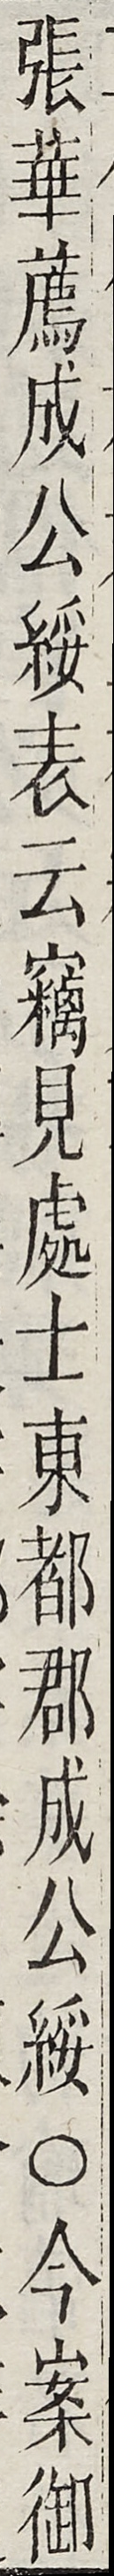張華薦成公綏表云竊見處士東都郡成公綏○今案御
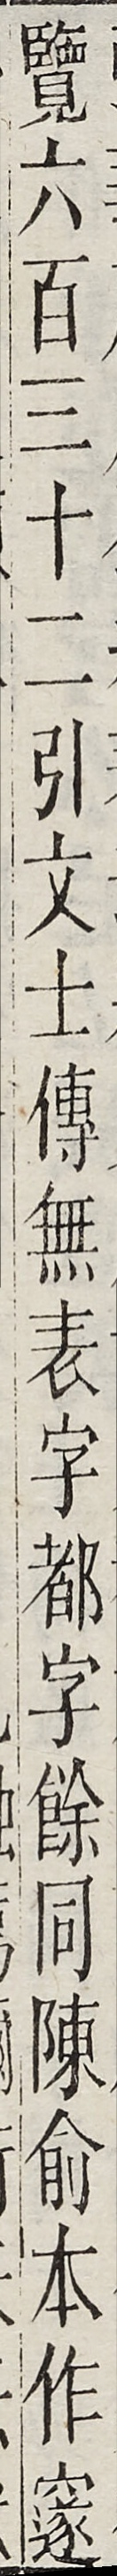覽六百三十二引文士傳無表字郡字餘同陳俞本作邃
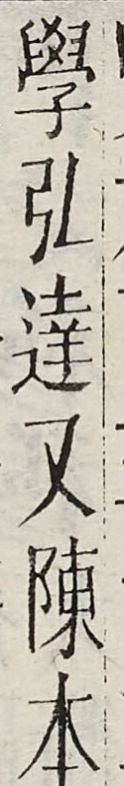學弘達又陳本
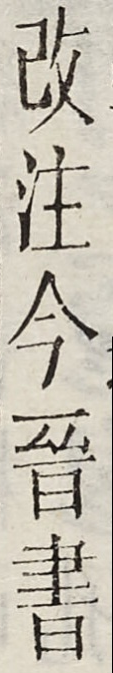改注今晉書
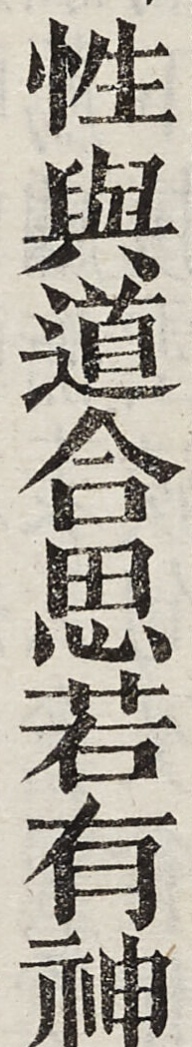性與道合思若有神
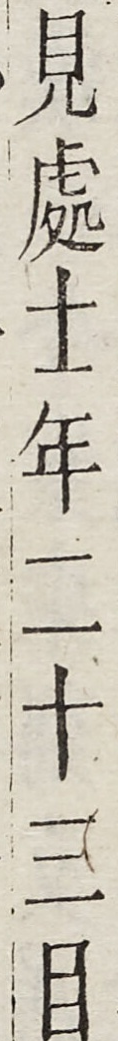見處士年二十三目
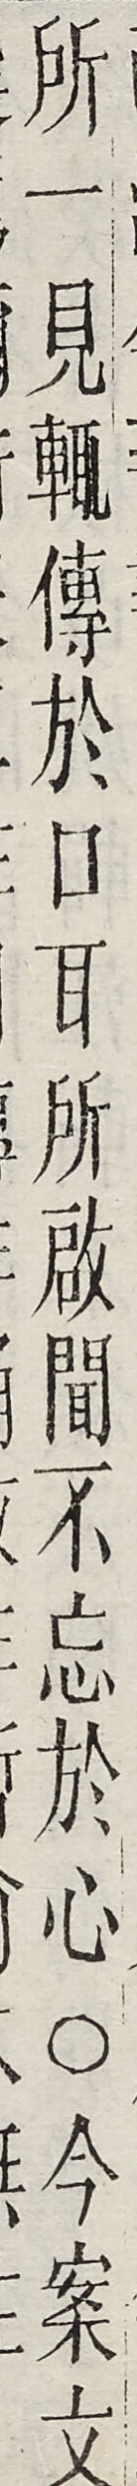所一見輒傳於口耳所啟聞不忘於心○今案文
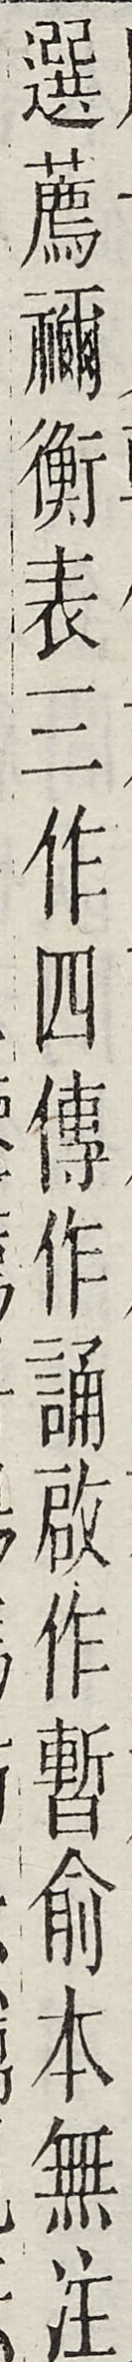選禰衡表三作四傳作誦啟作暫俞本無注
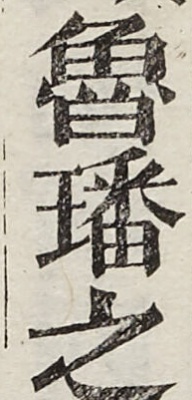魯璠之
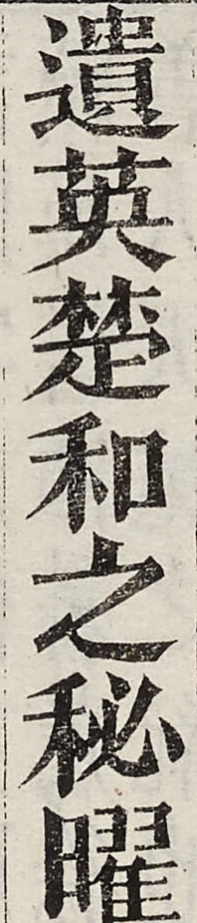遺英楚和之秘曜
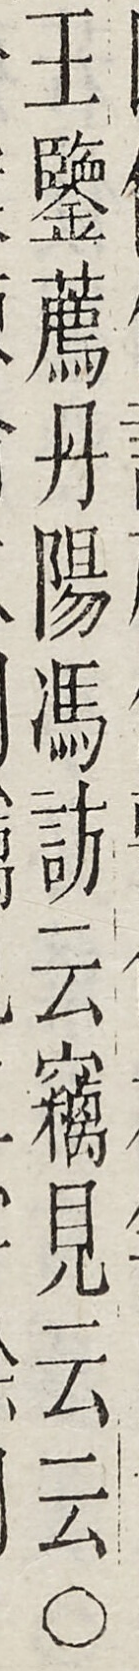王鑒薦丹陽馮訪云竊見云云○
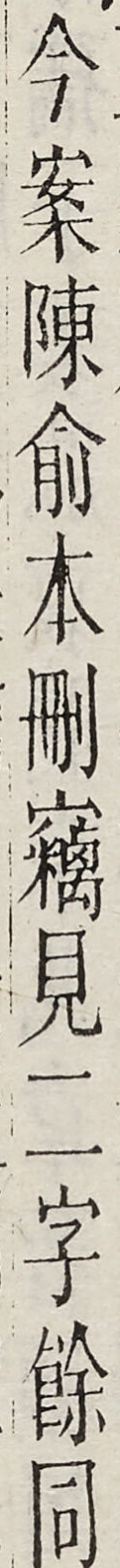今案陳俞本刪竊見二字餘同
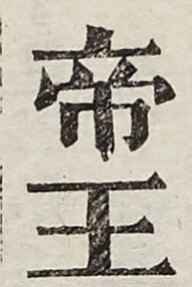帝王
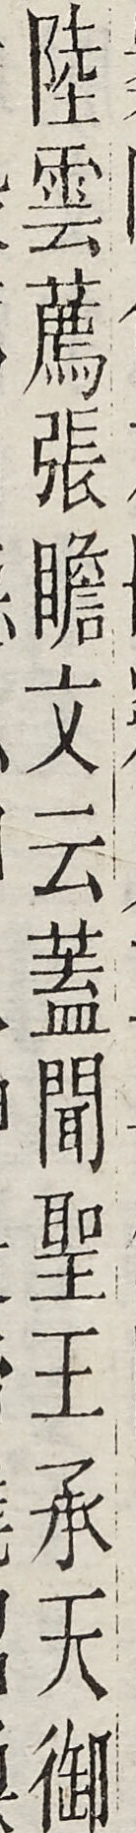陸云薦張贈文云蓋聞聖王承天御
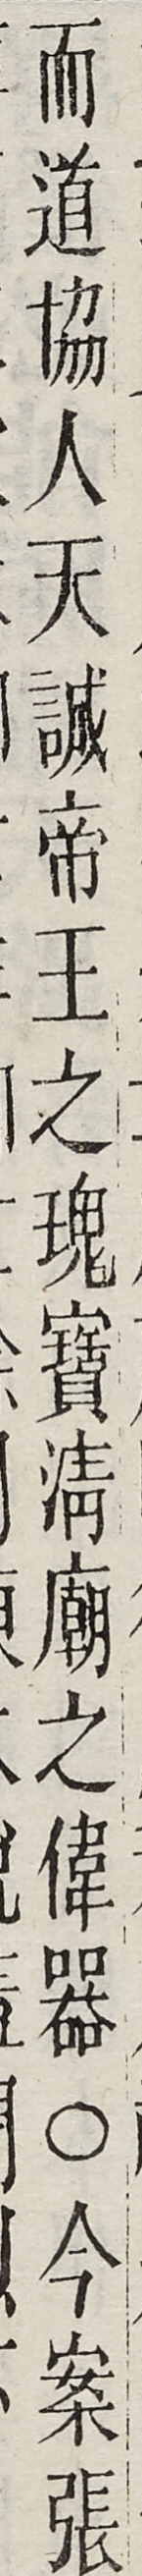而道協人天誠帝王之瑰寶清廟之偉器○今案張
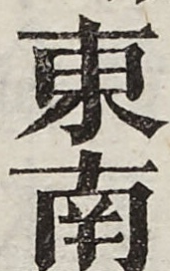東南
